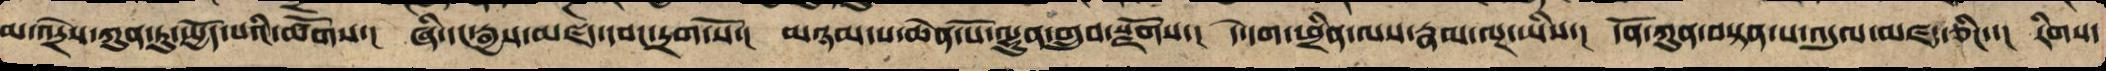མ་འདྲེས་ཀུན་ཏུ་སྤྱོད་པའི་ཚོགས་། ཞི་དང་རྒྱས་མཛད་དབང་དྲག་པོ་། མཉམ་པ་ཆེན་པོ་ལྷུན་གྲུབ་སྫོགས་། དེ་དག་ཕྲིན་ལས་རྣམ་ལྔ་ཡིས་། དོན་ཀུན་བསྟན་པ་འདུལ་མཛད་ཅིང་་། རིགས་
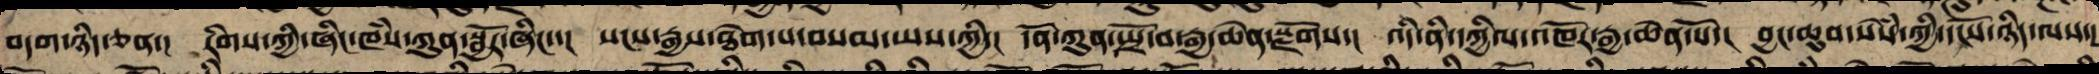བདག་ཉིད་ཅན་། རིགས་ཀྱི་ཞིང་ཁཾས་ཀུན་སྦྱོར་ཞིང་་། སངས་རྒྱས་ཐེག་པ་བསམ་ཡས་ཀྱིས་། དོན་ཀུན་སྤྲོ་བ་རྒྱ་ཆེན་སྫོགས་། འདི་ནི་དཀྱིལ་འཁོར་རྒྱ་ཆེན་པོ་། བྱང་ཆུབ་སེཾས་ཀྱི་དངོས་ཉིད་ལས་།
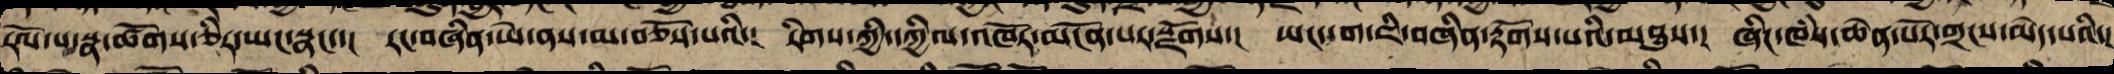རོལ་པ་སྣ་ཚོགས་ཅིར་ཡང་སྣང་་། རང་བཞིན་ཡེ་ནས་མ་བཅོས་པའི་། རིགས་ཀྱི་དཀྱིལ་འཁོར་མངོན་པར་སྫོགས་། ཡང་དག་ཇི་བཞིན་རྟོགས་པའི་མཐུས་། ཞིང་ཁཾས་ཆེན་པོར་གྲངས་མེད་པའི་།
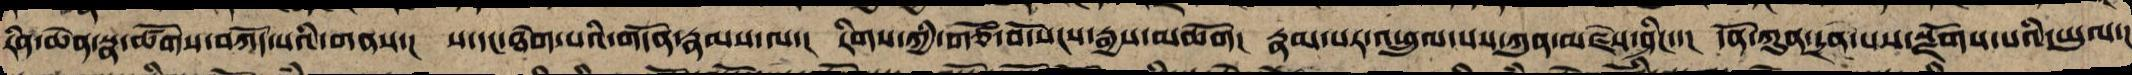རིན་ཆེན་སྣ་ཚོགས་བཀོད་པའི་གནས་། ས་དང་ཐེག་པའི་དོན་རྣམས་ལ་། རིགས་ཀྱི་གཙོ་བོ་སངས་རྒྱས་མཆོག། རྣམ་པར་འཕྲུལ་པས་ཀུན་མཛེས་ཤིང་་། དོན་ཀུན་དྲན་པས་སྫོགས་པའི་ཡུལ་།
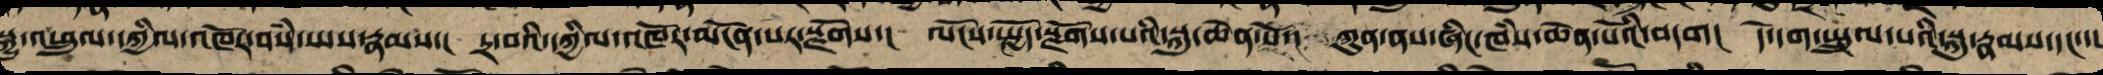སྒྱུ་འཕྲུལ་དཀྱིལ་འཁོར་བསཾ་ཡས་རྣམས་། དྲ་བའི་དཀྱིལ་འཁོར་མངོན་པར་སྫོགས་། ལོངས་སྤྱོད་སྫོགས་པའི་སྐུ་ཆེན་པོ་། ཀུན་ནས་ཞིང་ཁཾས་ཆེན་པོའི་བདག། དེ་དག་སྤྲུལ་པའི་སྐུ་རྣམས་དང་།
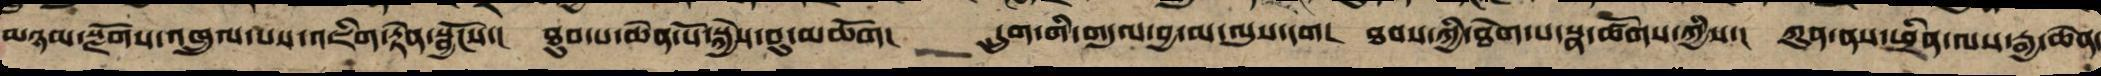མཉམ་སྫོགས་འཁྲུལ་པས་འཇིག་རྟེན་སྦྱོངས་། ཐུབ་པ་ཆེན་པོ་སྐྱེས་བུ་མཆོག། དྲུག་གི་གདུལ་བྱ་མ་ལུས་དག། ཐབས་ཀྱི་ཐེག་པ་སྣ་ཚོགས་ཀྱིས་། ཀུན་ནས་ཕྲིན་ལས་རྒྱ་ཆེན་
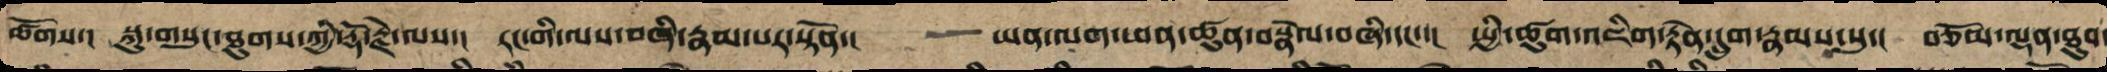ཚོགས་། སྐུ་གསུང་ཐུགས་ཀྱི་རྡོ་རྗེ་ལས་། རང་གི་ལས་བཞི་རྣམ་པར་སྟོན་། ཡན་ལག་ཕན་ཚུན་བསྣེལ་བཞི་དང་་། སྤྱི་ཚུག་འཇིག་རྟེན་དྲུག་རྣམས་སུ་། བཅོམ་ལྡན་ཐུབ་
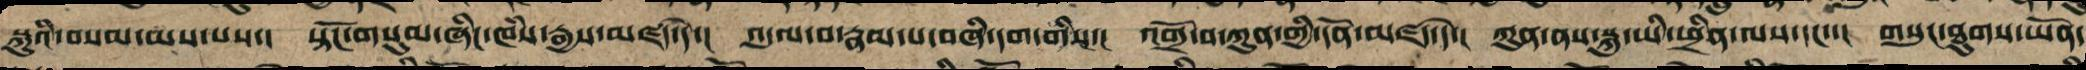སྐུའི་བསམ་ཡས་པས་། སྟོང་གསུམ་ཞིང་ཁཾས་རྒྱས་མཛད་དེ་། འདུལ་བ་རྣམ་པ་བཞི་དག་གིས་། འགྲོ་བ་ཀུན་གྱི་དོན་མཛད་དེ་། ཀུན་ནས་སྐུ་ཡི་ཕྲིན་ལས་དང་་། གསུང་ཐུགས་ཡོན་
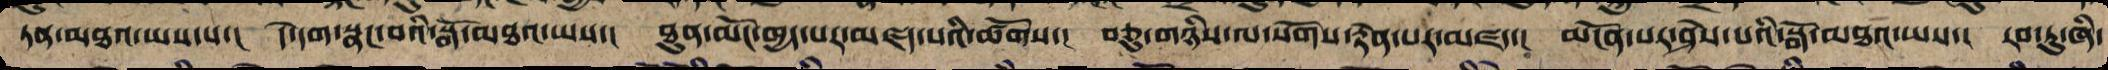ཏན་མཐའ་ཡས་པ་། དེ་དག་སྣང་བའི་སྒོ་མཐའ་ཡས་། ཐུན་མོང་ཁྱད་པར་མཛད་པའི་ཚོགས་། བཅུ་གཉིས་ལ་སོགས་རྟེན་པར་མཛད་། མངོན་པར་ཤེས་པའི་སྒོ་མཐའ་ཡས་། རབ་ཏུ་ཞི་
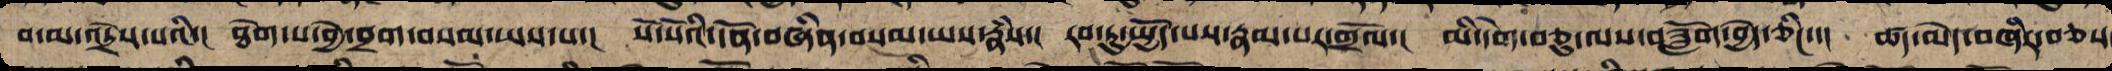བ་མ་འདྲེས་པའི་། ཐེག་པའི་བྱེ་བྲག་བསམ་ཡས་པ་། སོ་སོའི་དོན་བཞིན་བསམ་ཡས་རྣཾས་། རབ་ཏུ་སྤྱོད་པས་རྣམ་པར་གྲོལ་། མི་དགེ་བཅུ་ལས་བཟློག་བྱེད་ཅིང་་། ཚད་མེད་བཞིར་བཅས
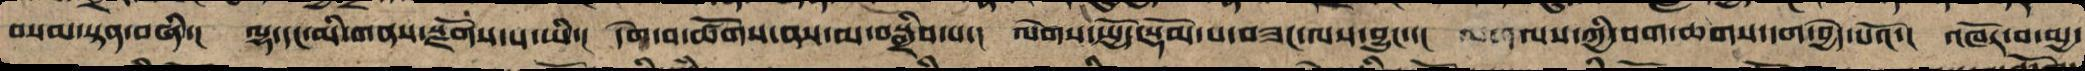བསམ་གཏན་བཞི་། ལྷ་དང་མི་གནས་གསྫོས་པ་ཡི་། དགེ་བ་ཚོགས་ནས་མ་བསྒྲིབས་པ་། ལེགས་སྤྱོད་སྡོམ་པ་བཟང་ལས་བྱུང་་། ལས་ཀྱི་བག་ཆགས་དག་བྱེད་པའོ་། འཁོར་ནས་མྱ་
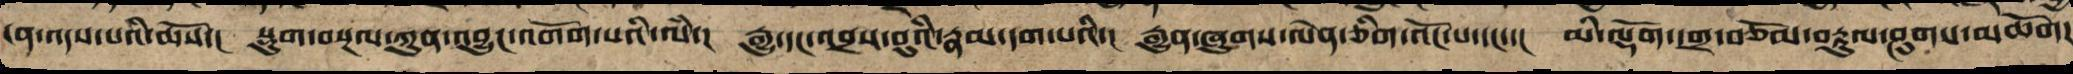ངན་འདས་པའི་ཆོས་། སྡུག་བསྔལ་ཀུན་འབྱུང་འགོག་པའི་ལཾ་། རྒྱུ་དང་འབྲས་བུ་རྣམ་དག་པའི་། རྒྱུན་ཞུགས་ལན་ཅིག་འོང་བ་དང་་། མི་ལྡོག་དགྲ་བཅོམ་བརྟུལ་ཤུགས་མཆོག།
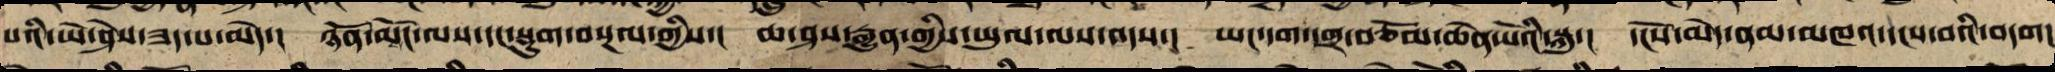པའི་ཡེ་ཤེས་ཟད་པ་མེད་། ཉོན་མོངས་ལས་དང་སྡུག་བསྔལ་གྱི་། ཆ་ཤས་རྒྱུན་གྱི་ཡུལ་ལས་འདས་། ཡང་དག་དགྲ་བཅོམ་ཆེན་པོའི་སྐུ་། དངོས་མེད་ནམ་མཁའ་དངས་པའི་བདག།
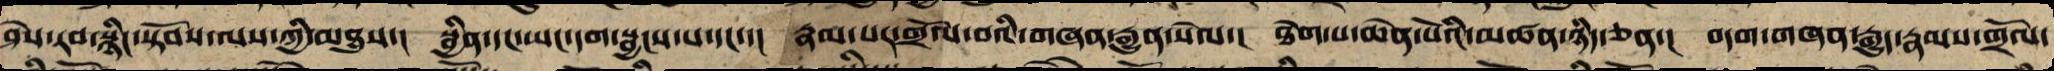ཤེས་རབ་སྙིང་སྟོབས་ལས་ཀྱི་མཐུས་། སྦྱིན་དང་ཡང་དག་སྦྱངས་པ་དང་་། རྣམ་པར་གྲོལ་བའི་གཞན་རྒྱུན་སེལ་། ཐེག་པ་ཆེན་པོའི་མཚན་ཉིད་ཅན་། བདག་གཞན་རྒྱུད་རྣམས་གྲོལ་
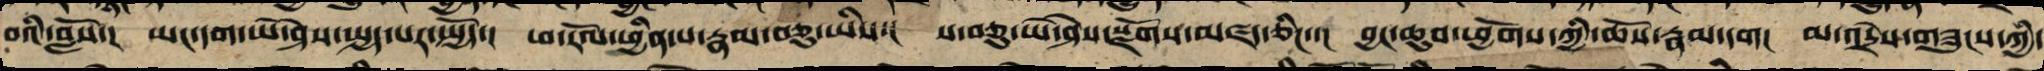བའི་བློས་། ཡང་དག་ཡེ་ཤེས་སྤྱད་པ་སྤྱོད་། ཕ་རོལ་ཕྱིན་པ་རྣམ་བཅུ་ཡིས་། ས་བཅུ་ཡེ་ཤེས་སྫོགས་མཛད་ཅིང་་། བྱང་ཆུབ་ཕྱོགས་ཀྱི་ཆོས་རྣམས་དག། མ་འདྲེས་གཟུངས་ཀྱིས་
